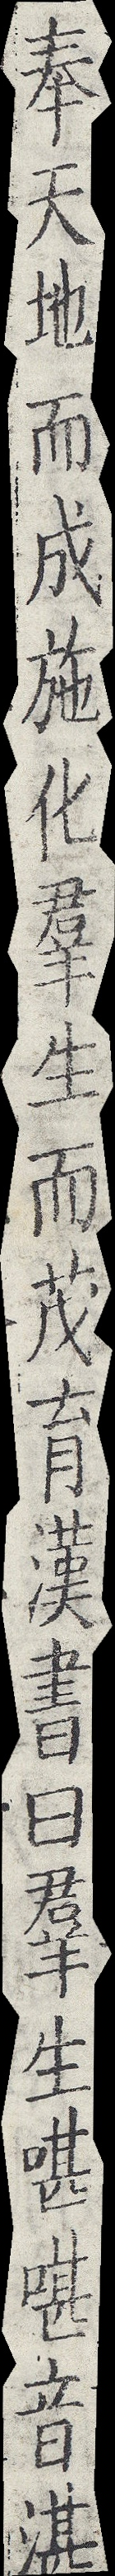奉天地而成施化羣生而茂育漢書曰羣生啿啿音湛
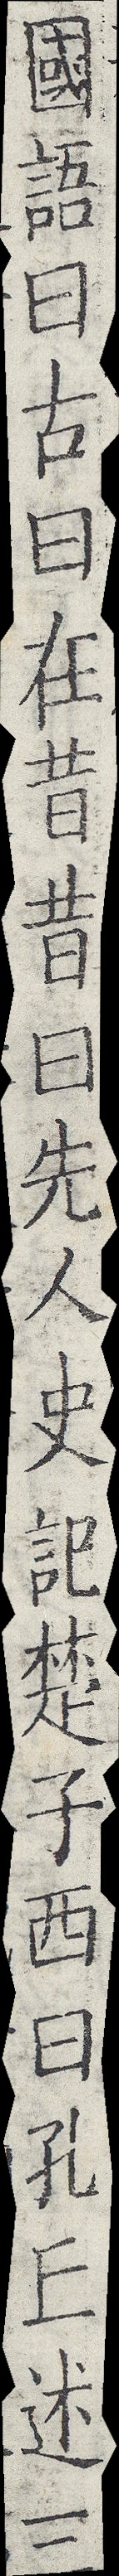國語曰古曰在昔昔曰先人史記楚子西曰孔丘述三
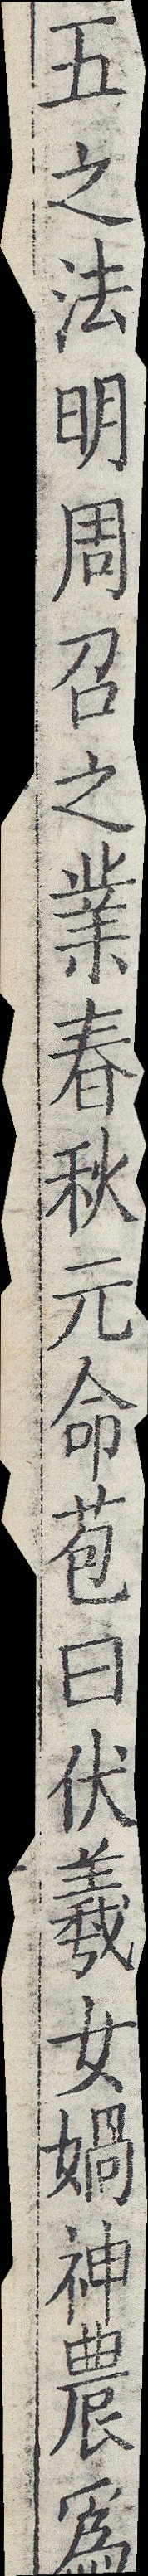五之法明周召之業春秋元命苞曰伏羲女媧神農為
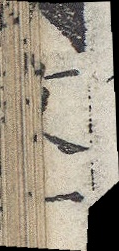文一
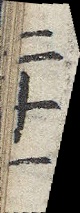二十一
